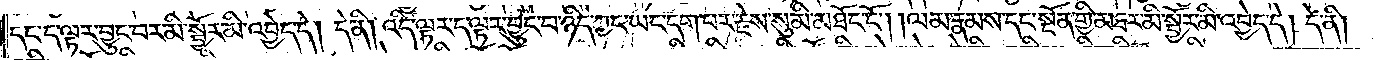དང་ད་ལྟར་བྱུང་བར་མི་སྦྱོར་མི་འབྱེད་དེ། དེ་ནི། འདི་ལྟར་ད་ལྟར་བྱུང་བ་ཉིད་ཀྱང་ཡང་དག་པར་རྗེས་སུ་མི་མཐོང་ངོ༌། །ལམ་རྣམས་དང་སྔོན་གྱི་མཐར་མི་སྦྱོར་མི་འབྱེད་དེ། དེ་ནི།
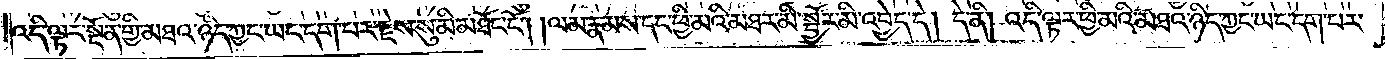འདི་ལྟར་སྔོན་གྱི་མཐའ་ཉིད་ཀྱང་ཡང་དག་པར་རྗེས་སུ་མི་མཐོང་ངོ༌། །ལམ་རྣམས་དང་ཕྱི་མའི་མཐར་མི་སྦྱོར་མི་འབྱེད་དེ། དེ་ནི། འདི་ལྟར་ཕྱི་མའི་མཐའ་ཉིད་ཀྱང་ཡང་དག་པར་
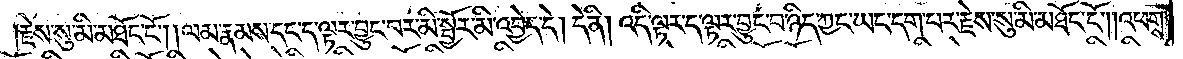རྗེས་སུ་མི་མཐོང་ངོ༌། །ལམ་རྣམས་དང་ད་ལྟར་བྱུང་བར་མི་སྦྱོར་མི་འབྱེད་དེ། དེ་ནི། འདི་ལྟར་ད་ལྟར་བྱུང་བ་ཉིད་ཀྱང་ཡང་དག་པར་རྗེས་སུ་མི་མཐོང་ངོ༌། །འཕགས་
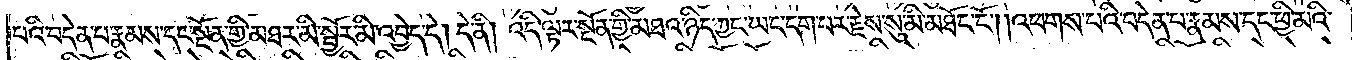པའི་བདེན་པ་རྣམས་དང་སྔོན་གྱི་མཐར་མི་སྦྱོར་མི་འབྱེད་དེ། དེ་ནི། འདི་ལྟར་སྔོན་གྱི་མཐའ་ཉིད་ཀྱང་ཡང་དག་པར་རྗེས་སུ་མི་མཐོང་ངོ༌། །འཕགས་པའི་བདེན་པ་རྣམས་དང་ཕྱི་མའི་
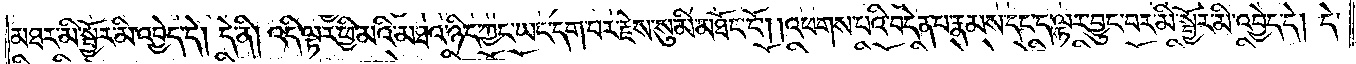མཐར་མི་སྦྱོར་མི་འབྱེད་དེ། དེ་ནི། འདི་ལྟར་ཕྱི་མའི་མཐའ་ཉིད་ཀྱང་ཡང་དག་པར་རྗེས་སུ་མི་མཐོང་ངོ༌། །འཕགས་པའི་བདེན་པ་རྣམས་དང་ད་ལྟར་བྱུང་བར་མི་སྦྱོར་མི་འབྱེད་དེ། དེ་
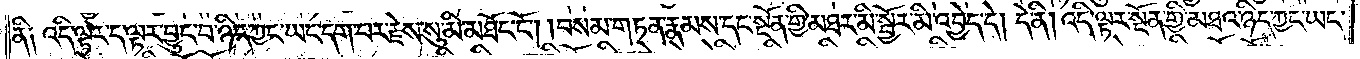ནི༑ འདི་ལྟར་ད་ལྟར་བྱུང་བ་ཉིད་ཀྱང་ཡང་དག་པར་རྗེས་སུ་མི་མཐོང་ངོ༌། །བསམ་གཏན་རྣམས་དང་སྔོན་གྱི་མཐར་མི་སྦྱོར་མི་འབྱེད་དེ། དེ་ནི། འདི་ལྟར་སྔོན་གྱི་མཐའ་ཉིད་ཀྱང་ཡང་
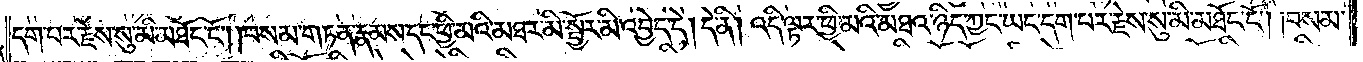དག་པར་རྗེས་སུ་མི་མཐོང་ངོ༌། །བསམ་གཏན་རྣམས་དང་ཕྱི་མའི་མཐར་མི་སྦྱོར་མི་འབྱེད་དེ། དེ་ནི། འདི་ལྟར་ཕྱི་མའི་མཐའ་ཉིད་ཀྱང་ཡང་དག་པར་རྗེས་སུ་མི་མཐོང་ངོ༌། །བསམ་
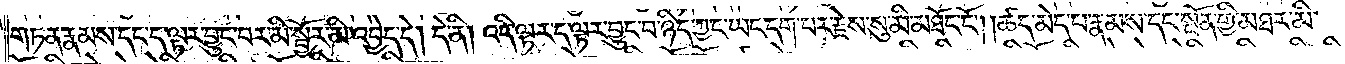གཏན་རྣམས་དང་ད་ལྟར་བྱུང་བར་མི་སྦྱོར་མི་འབྱེད་དེ། དེ་ནི། འདི་ལྟར་ད་ལྟར་བྱུང་བ་ཉིད་ཀྱང་ཡང་དག་པར་རྗེས་སུ་མི་མཐོང་ངོ༌། །ཚད་མེད་པ་རྣམས་དང་སྔོན་གྱི་མཐར་མི་
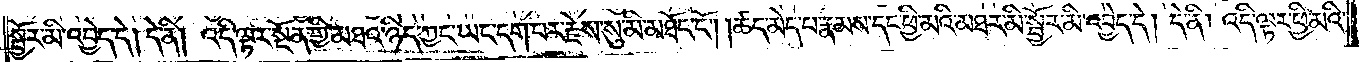སྦྱོར་མི་འབྱེད་དེ། དེ་ནི། འདི་ལྟར་སྔོན་གྱི་མཐའ་ཉིད་ཀྱང་ཡང་དག་པར་རྗེས་སུ་མི་མཐོང་ངོ༌། །ཚད་མེད་པ་རྣམས་དང་ཕྱི་མའི་མཐར་མི་སྦྱོར་མི་འབྱེད་དེ། དེ་ནི། འདི་ལྟར་ཕྱི་མའི་
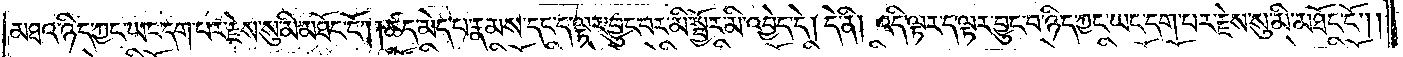མཐའ་ཉིད་ཀྱང་ཡང་དག་པར་རྗེས་སུ་མི་མཐོང་ངོ༌། །ཚད་མེད་པ་རྣམས་དང་ད་ལྟར་བྱུང་བར་མི་སྦྱོར་མི་འབྱེད་དེ། དེ་ནི། འདི་ལྟར་ད་ལྟར་བྱུང་བ་ཉིད་ཀྱང་ཡང་དག་པར་རྗེས་སུ་མི་མཐོང་ངོ༌༎
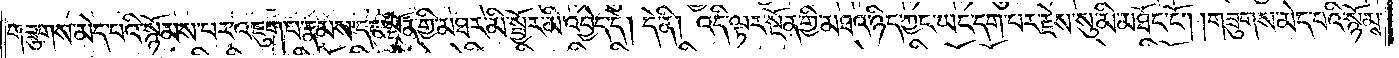གཟུགས་མེད་པའི་སྙོམས་པར་འཇུག་པ་རྣམས་དང་སྔོན་གྱི་མཐར་མི་སྦྱོར་མི་འབྱེད་དེ། དེ་ནི། འདི་ལྟར་སྔོན་གྱི་མཐའ་ཉིད་ཀྱང་ཡང་དག་པར་རྗེས་སུ་མི་མཐོང་ངོ༌། །གཟུགས་མེད་པའི་སྙོམས་
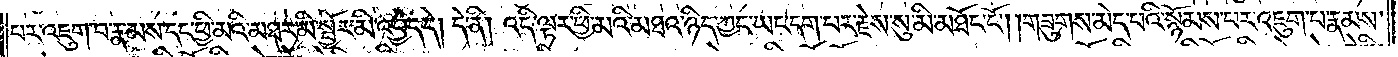པར་འཇུག་པ་རྣམས་དང་ཕྱི་མའི་མཐར་མི་སྦྱོར་མི་འབྱེད་དེ། དེ་ནི། འདི་ལྟར་ཕྱི་མའི་མཐའ་ཉིད་ཀྱང་ཡང་དག་པར་རྗེས་སུ་མི་མཐོང་ངོ༌། །གཟུགས་མེད་པའི་སྙོམས་པར་འཇུག་པ་རྣམས་
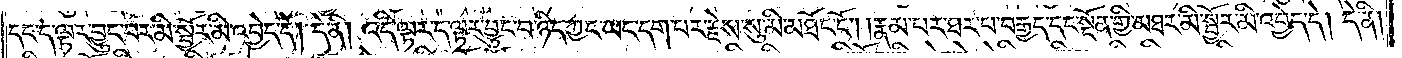དང་ད་ལྟར་བྱུང་བར་མི་སྦྱོར་མི་འབྱེད་དེ། དེ་ནི། འདི་ལྟར་ད་ལྟར་བྱུང་བ་ཉིད་ཀྱང་ཡང་དག་པར་རྗེས་སུ་མི་མཐོང་ངོ༌། །རྣམ་པར་ཐར་པ་བརྒྱད་དང་སྔོན་གྱི་མཐར་མི་སྦྱོར་མི་འབྱེད་དེ། དེ་ནི།
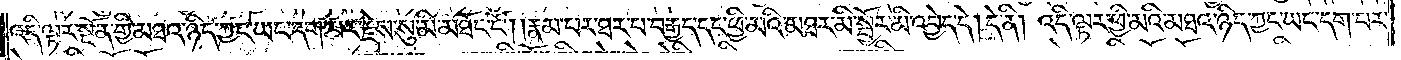འདི་ལྟར་སྔོན་གྱི་མཐའ་ཉིད་ཀྱང་ཡང་དག་པར་རྗེས་སུ་མི་མཐོང་ངོ༌། །རྣམ་པར་ཐར་པ་བརྒྱད་དང་ཕྱི་མའི་མཐར་མི་སྦྱོར་མི་འབྱེད་དེ། དེ་ནི། འདི་ལྟར་ཕྱི་མའི་མཐའ་ཉིད་ཀྱང་ཡང་དག་པར་
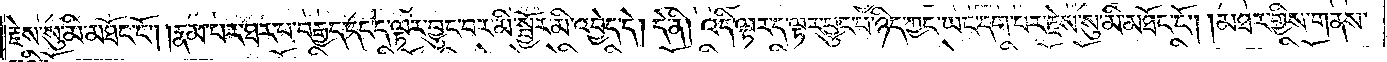རྗེས་སུ་མི་མཐོང་ངོ༌། །རྣམ་པར་ཐར་པ་བརྒྱད་དང་ད་ལྟར་བྱུང་བར་མི་སྦྱོར་མི་འབྱེད་དེ། དེ་ནི། འདི་ལྟར་ད་ལྟར་བྱུང་བ་ཉིད་ཀྱང་ཡང་དག་པར་རྗེས་སུ་མི་མཐོང་ངོ༌། །མཐར་གྱིས་གནས་
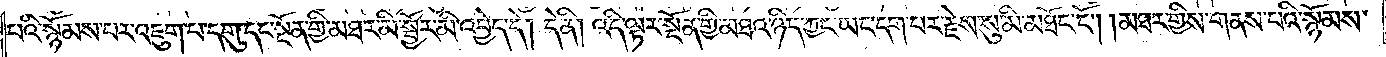པའི་སྙོམས་པར་འཇུག་པ་དགུ་དང་སྔོན་གྱི་མཐར་མི་སྦྱོར་མི་འབྱེད་དེ། དེ་ནི། འདི་ལྟར་སྔོན་གྱི་མཐའ་ཉིད་ཀྱང་ཡང་དག་པར་རྗེས་སུ་མི་མཐོང་ངོ༌། །མཐར་གྱིས་གནས་པའི་སྙོམས་
